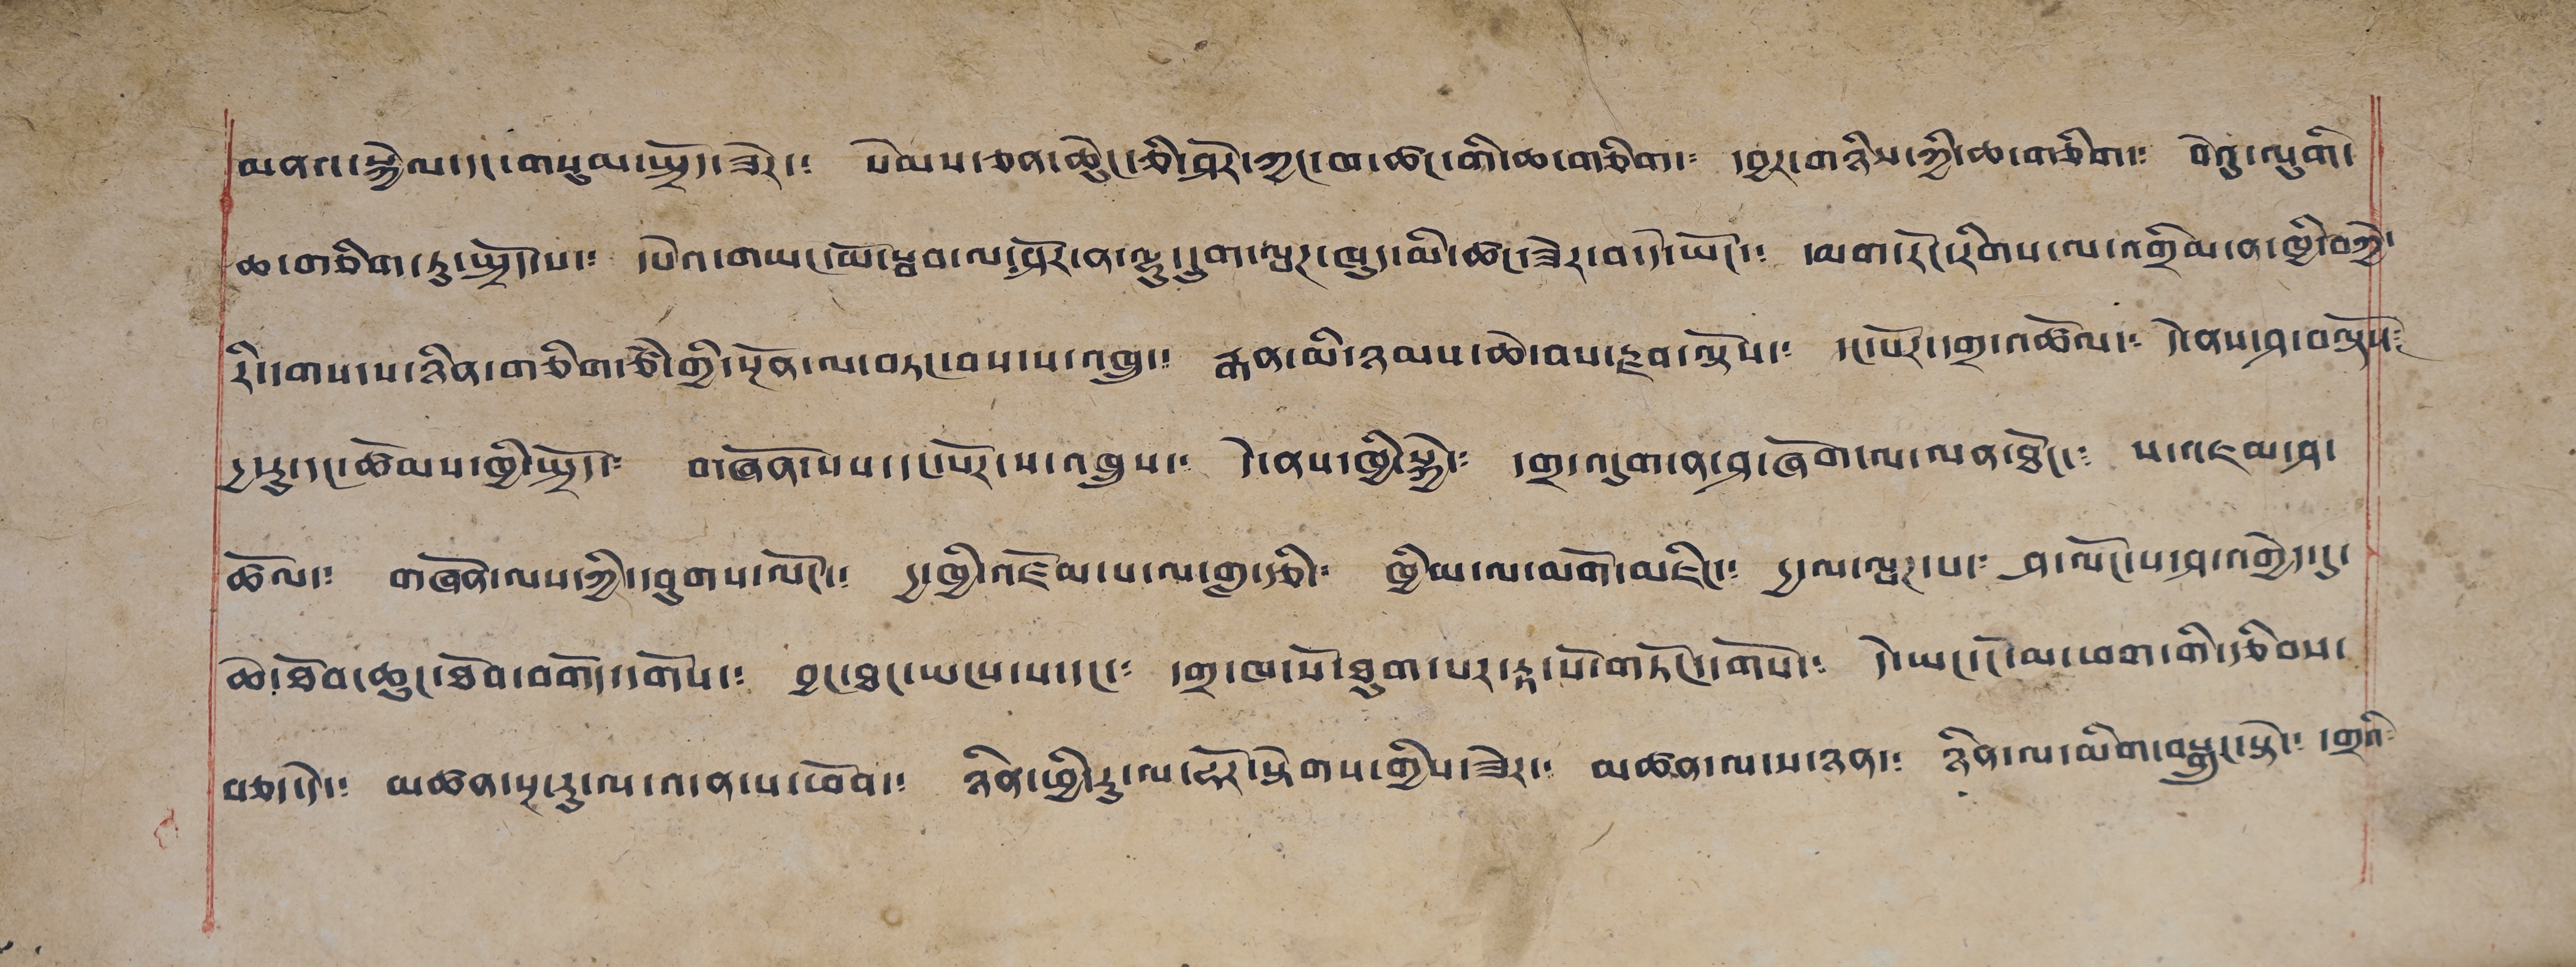མནའ་སྐྱེལ་དང་གསུམ་སྤྲོད་ཟེར་༴ སེམས་ཅན་ཆེུང་ཅི་ཤོར་ཀྱང་ཁ་ཚང་གི་ཆ་གཅིག་༴ དབྱར་གཉིས་ཀྱི་ཆ་བཅིག་༴ བེའུ་ལུགི་
ཆ་གཅིག་ཏུ་སྤྲོད་པ་༴ དཔེའ་གཡང་མོ་སྦབ་ལ་ཤོར་ན་ལྷུ་དྲུག་ལྤཊ་ཁུད་མི་ཚང་ཟེར་བ་དེ་ཡོང་༴ དམག་རོང་རིགས་ལ་འགྲིམ་ན་ཁྱི་བཀྱེ་
རི་དགས་ས་ཉིན་གཅིག་ཙམ་གྱི་སྔོན་ལ་བཏང་བས་ས་འཁྲུ་༴ རྒན་མི་ཉམས་ཆེ་བས་རྫབ་ལྟོས་༴ དང་པོར་དགྲ་འཚོལ་༴ དེ་ནས་ཤ་བལྟོས༴
དྱ་རུ་དང་ཚོམས་ཁྱི་སྤྲོད་༴ གཞོན་པ་དང་སོར་ས་འཁྲུས་༴ དེ་ནས་ཁྱི་སྐྱེ་༴ དགྲ་འདུག་ན་ཤ་ཞོག་ལ་ལན་ཐོང་༴ པ་འཛམ་ཤ་
ཚོལ་༴ གཞོན་ལས་ཀྱི་བུགས་ལོང་༴ དྱ་ཁྱི་འཛོམ་པ་གླ་གུ་རྩི་༴ ཁྱིམ་ལ་མགོ་མཛིང་༴ དྱ་ལ་ལྤཊ་པ་༴ ཤ་ལོང་པ་ཤ་འགྱེད་དུ་
ཆེ་ཐོབ་ཆུང་ཐོབ་བགོད་དགོས་༴ བྱང་ཐང་ཡངས་པ་དང་༴ དགྲ་ཁ་སོ་ཐུག་པར་རྟ་པོ་གཏོང་དགོས་༴ དེ་ཡང་ངོ་མ་ཕག་གི་རྩིབས་
བཅད་དེ་༴ མཁན་སྔ་རུ་ལ་འ་ན་པ་ཕོབ་༴ ཉིན་ཕྱི་རུ་ལ་ཧོར་སྟེགས་གྱིས་ཟེར་༴ མཚན་ལ་ས་ཉན་༴ ཉིན་ལ་མིག་བསྒྲུང་སྟེ་༴ དགྲའི༴
